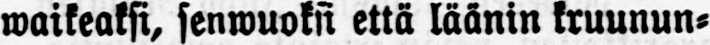waikeaksi, senwuoksi että läänin kruunun-
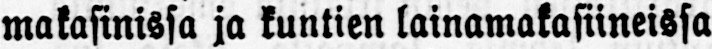makasinissa ja kuntien lainamakasiineissa
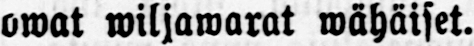owat wiljawarat wähäiset.
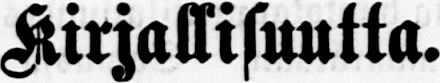Kirjallisuutta.
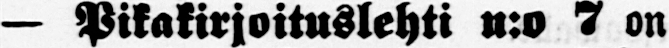— Pikakirjoituslehti n:o 7 on
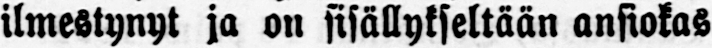ilmestynyt ja on sisällykseltään ansiokas
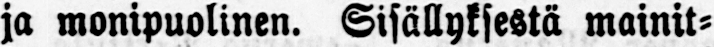ja monipuolinen. Sisällyksestä mainit-
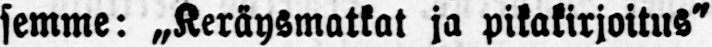semme: „ Keräysmatkat ja pikakirjoitus"
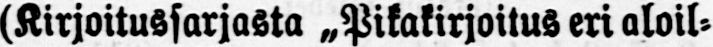(Kirjoitussarjasta „ Pikakirjoitus eri aloil-
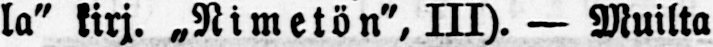la" kirj. „ Nimetön", III). — Muilta
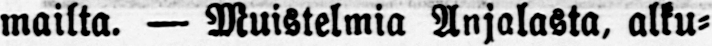mailta. — Muistelmia Anjalasta, alku-
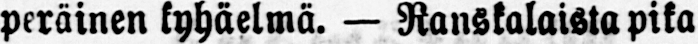peräinen kyhäelmä. — Ranskalaista pika-
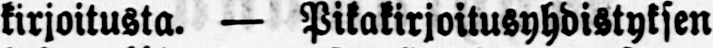kirjoitusta. — Pikakirjoitusyhdistyksen
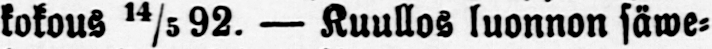kokous 14/5 93. — Kuullos luonnon säwe-
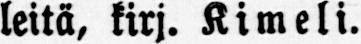leitä, kirj. Kimeli.
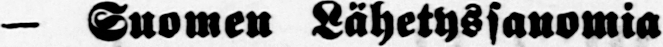— Suomen Lähetyssanomia
